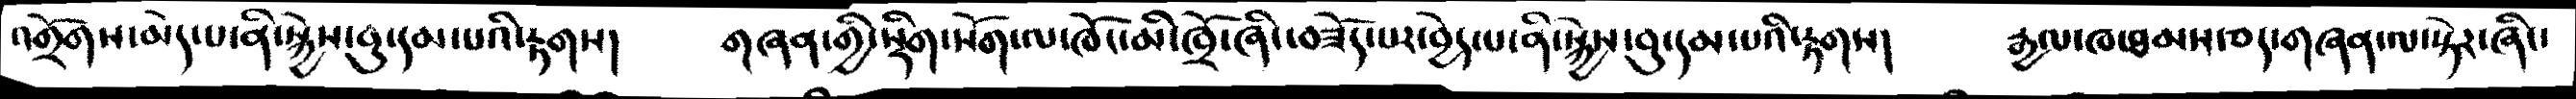འགྲོགས་མེད་པ་ནི་སྐྱེས་བུ་དམ་པའི་རྟགས།  གཞན་གྱི་སྡིག་སོག་ལ་ཁོ་མི་ཁྲོ་ཞིང་བཟོད་པར་བྱེད་པ་ནི་སྐྱེས་བུ་དམ་པའི་རྟགས།  རྒྱལ་ཁ་ཐམས་ཅད་གཞན་ལ་སྟེར་ཞིང་
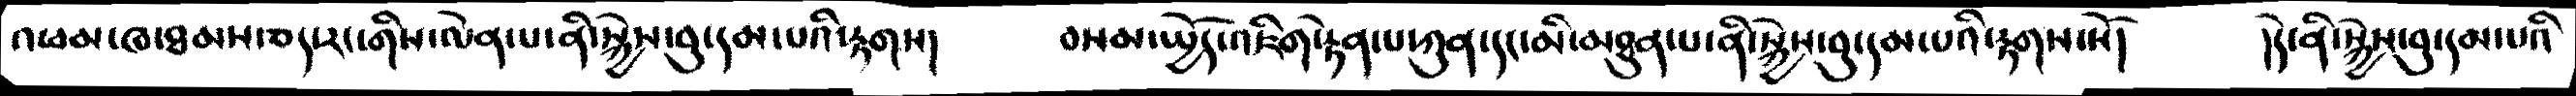འཕམ་ལ྄་ཐམས་ཅད་རང་གིས་ལེན་པ་ནི་སྐྱེས་བུ་དམ་པའི་རྟགས།  བསམ་སྤྱོད་འཇིག་རྟེན་པ་ཀུན་དང་མི་མཐུན་པ་ནི་སྐྱེས་བུ་དམ་པའི་རྟགས་སོ།  །དེ་ནི་སྐྱེས་བུ་དམ་པའི
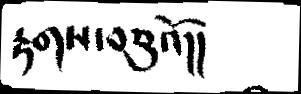རྟགས་བཅུའོ།།
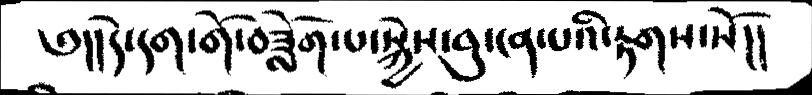༅།།དེ་དག་གོ་བཟློག་པ་སྐྱེས་བུ་ངན་པའི་རྟགས་སོ།།
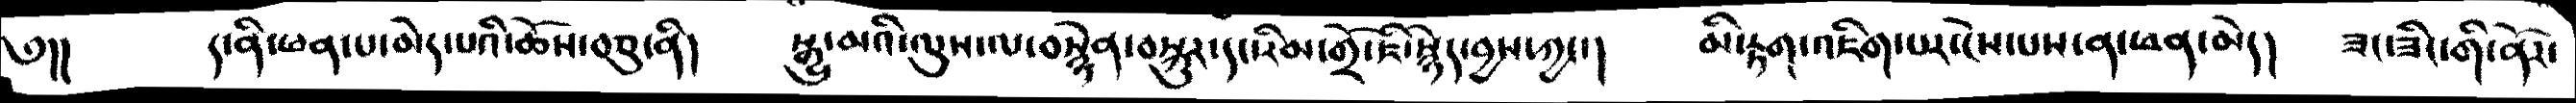༅།།   ད་ནི་ཕན་པ་མེད་པའི་ཆོས་བཅུ་ནི།  སྒྱུ་མའི་ལུས་ལ་བསྙེན་བསྐུར་དང་རིམ་གྲོ་ཇི་སྙེད་བྱས་ཀྱང་།  མི་རྟག་འཇིག་པར་ངེས་པས་ན་ཕན་མེད།  ཟང་ཟིང་གི་ནོར་
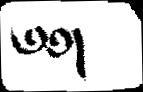༄༅།
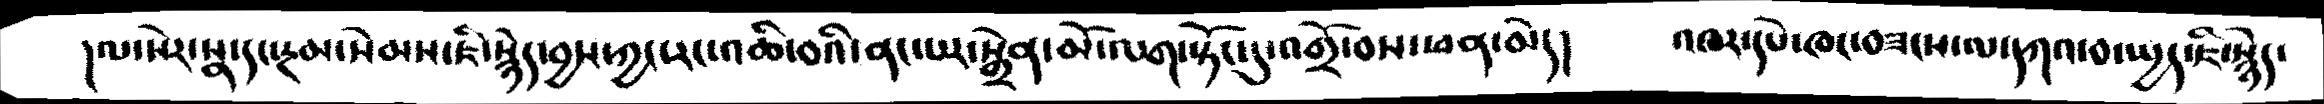།ལ་སེར་སྣ་དང་རྔམ་སེམས་ཇི་སྙེད་བྱས་ཀྱང་རང་འཆི་བའི་ནང་པར་སྒྲེན་མོ་ལག་སྟོང་དུ་འགྲོ་བས་ཕན་མེད།  འཁར་དཔེ་ཁང་བཟངས་ལ་དཀའ་བ་སྤྱད་ཇི་སྙེད་
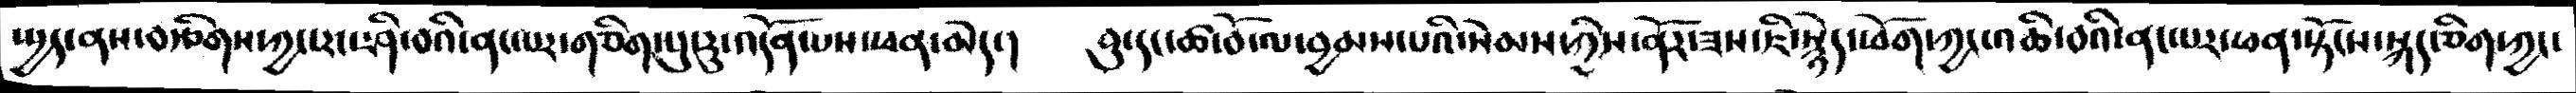སྤྱད་ནས་བརྩིགས་ཀྱང་རང་ཤི་བའི་ནང་པར་གཅིག་པུ་རུ་འདོན་པས་ཕན་མེད་།  བུ་དང་ཚ་བོ་ལ་བྱམས་པའི་སེམས་ཀྱིས་ནོར་ཟས་ཇི་སྙེད་ཕོག་ཀྱང་འཆི་བའི་ནང་པར་ཕན་སྟོངས་སྐད་ཅིག་ཀྱང་
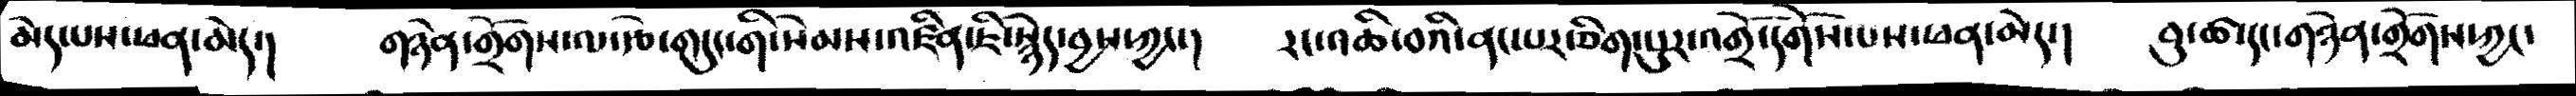མེད་པས་ཕན་མེད་།  གཉེན་གྲོགས་ལ་རྩེ་གདུང་གི་སེམས་འཛིན་ཇི་སྙེད་བྱས་ཀྱང་།  རང་འཆི་བའི་ནང་པར་ཅིག་པུར་འགྲོ་དགོས་པས་ཕན་མེད་།  བུ་ཚ་དང་གཉེན་གྲོགས་ཀྱང་
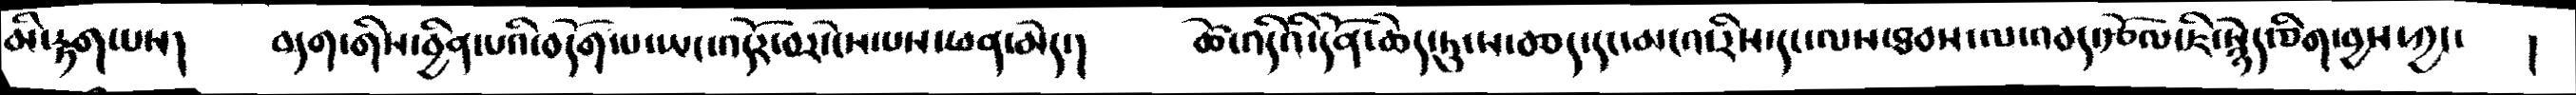མི་རྟག་པས།  བདག་གིས་བྱིན་པའི་བདོག་པ་ཡང་འདོར་བར་ངེས་པས་ཕན་མེད་།  ཚེ་འདིའི་དོན་མེད་ཏུ་ས་བཅད་དང་མངའ་རིས་དང་ལས་ཐབས་ལ་འབད་རྩོལ་ཇི་སྙེད་ཅིག་བྱས་ཀྱང་  །
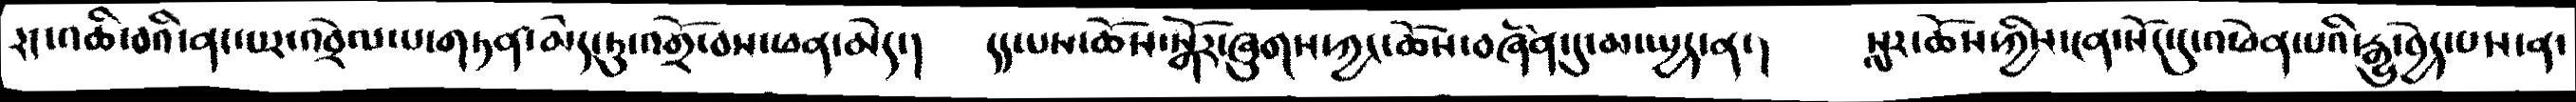རང་འཆི་བའི་ནང་པར་འབྲེལ་པ་གཏན་མེད་ཏུ་འགྲོ་བས་ཕན་མེད་།  དད་པས་ཆོས་སྒོར་ཞུགས་ཀྱང་ཆོས་བཞིན་དུ་མ་སྤྱད་ན་།  སླར་ཆོས་ཀྱིས་ངན་སོང་དུ་འཕེན་པའི་རྒྱུ་བྱེད་པས་ན་
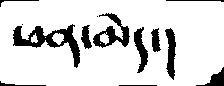ཕན་མེད་།
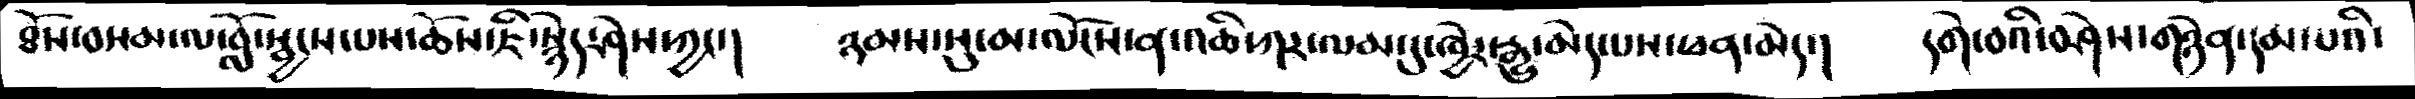ཐོས་བསམ་ལ་བློ་སྦྱངས་པས་ཆོས་ཇི་སྙེད་ཤེས་ཀྱང་།  ཉམས་སུ་མ་ལོངས་ན་འཆི་ཀར་ལམ་དུ་ཁྱེར་རྒྱུ་མེད་པས་ཕན་མེད་།  དགེ་བའི་བཤེས་གཉེན་དམ་པའི་
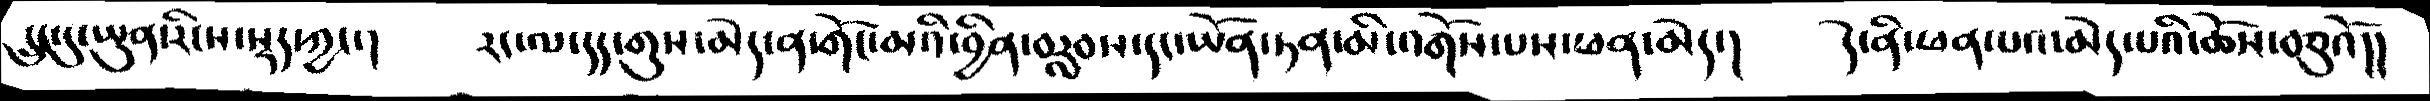དྲུང་དུ་ཡུན་རིངས་སྡད་ཀྱང་།  རང་ལ་དད་གུས་མེད་ན་གོང་མའི་བྱིན་བརླབས་དང་ཡོན་ཏན་མི་འགོས་པས་ཕན་མེད་།  དེ་ནི་ཕན་པའ་མེད་པའི་ཆོས་བཅུའོ།།
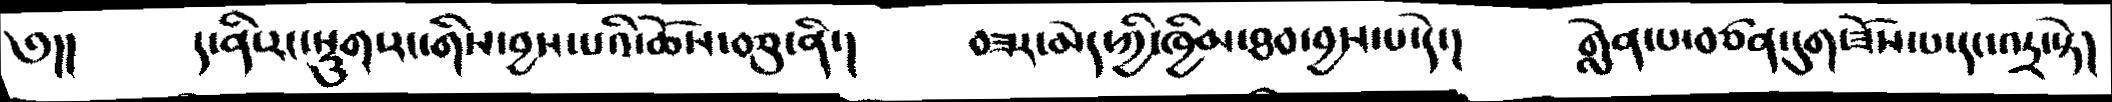༅།།  ད་ནི་རང་སྡུག་རང་གིས་བྱས་པའི་ཆོས་བཅུ་ནི་།  བཟར་མེད་ཀྱི་ཁྱིམ་ཐབ་བྱས་པ་དེ་།  གླེན་པ་བཙན་དུག་ཟོས་པ་དང་འདྲ་སྟེ།
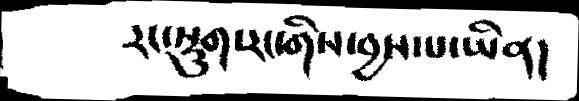རང་སྡུག་རང་གིས་བྱས་པ་ཡིན།
